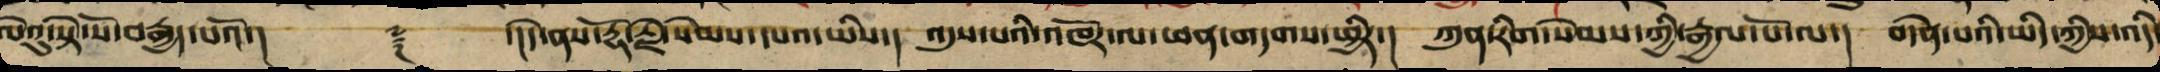ལེའུ་སྟེ་སོ་བརྒྱད་པའོ་།། ༈ ་།།དེ་ནས་རྡོ་རྗེ་སེམས་དཔའ་ཡིས་། འདུས་པའི་འཁོར་ལ་ཕན་གདགས་ཕྱིར་། ཀུན་རིག་སེམས་ཀྱི་རྒྱལ་པོ་ལ་། བདེན་པའི་ཡིད་ཀྱིས་འདི
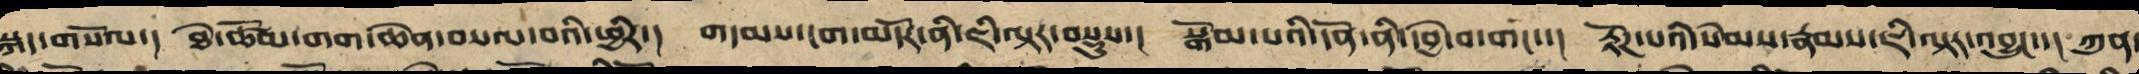སྐད་གསོལ་། ཐེ་ཚོམ་གག་ཆེན་བསལ་བའི་ཕྱིར་། གདམས་ངག་མདོར་ནི་ཇི་ལྟར་བསྡུས་། སྒོམ་པའི་དོན་ནི་དབྱེ་བ་གང་་། རྟོཌ་པའི་སེམས་ཉམས་ཇི་ལྟར་འབྱུང་་། ཀུན་
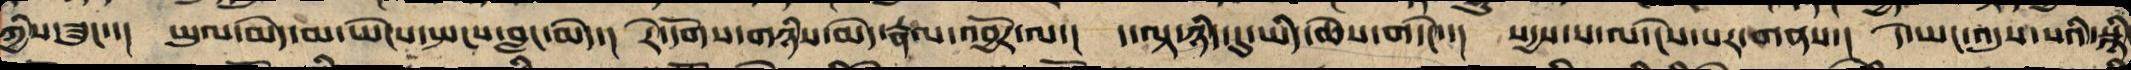ཀྱིས་ཟུང་་། ཡུལ་མེད་མ་ཡེངས་སྤང་བླང་མེད་། རེ་དོགས་གཉིས་མེད་རྣལ་འབྱོར་ལ་། ད་ལྟ་ཉིད་དུ་ཡིད་ཆེས་གདེང་་། སདྱས་ས་ལ་ངེས་པར་གནས་། དེ་ཡང་འདུས་པའི་སྙིང
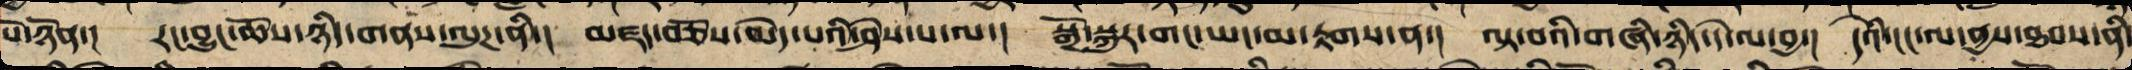པོ་ཉོན་། རང་བྱུང་ཆོས་ཉིད་གནས་ལུཌ་ནི་། མཛད་བཅོས་མེད་པའི་ཤེས་པ་ལ་། སྒྲོ་སྐུར་གང་ཡང་མ་རྟགས་ན་། ལྟ་བའི་གཞི་ཉིད་དེ་ལ་བྱ་། དེའི་ངང་ལ་ནྱས་ཐབས་ནི་
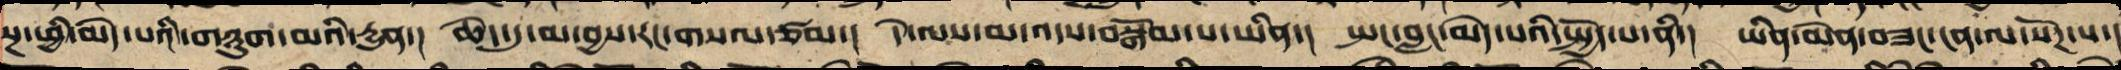སྔ་ཕྱི་མེད་པའི་གཉུག་མའི་རྒྱུན་། ཆེད་དུ་མ་བྱས་རང་གསལ་ཙམ་། དེ་ལས་མ་འདས་བསྒོམ་པ་ཡིན་། སྤང་བླང་མེད་པའི་སྤྱོད་པ་ནི་། ཡིན་མིན་བཟང་ངན་ལ་སོཌ་པ་།
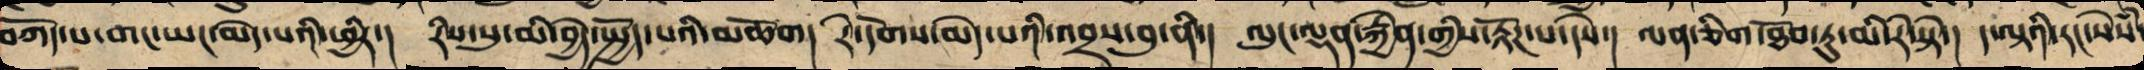བཀོད་པ་གང་ཡང་མེད་པའི་ཕྱིར་། རིས་སུ་མི་བྱེད་སྤྱོད་པའི་མཆོག། རེ་དོགས་མེད་པའི་འབྲས་བུ་ནི་། ལུང་ལྡན་རྐྱེན་གྱིས་རྟོཌ་པ་དེས་། ལན་གཅིག་ཐོབ་ཏུ་མི་རེ་སྟེ་། ད་ལྟའི་རང་སེཾས་
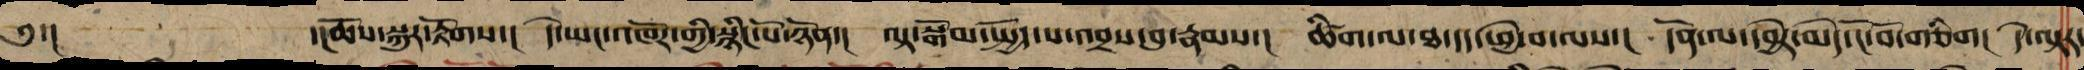༄༅་། ་།ཆོས་སྐུར་རྟོགས་། དེ་ཡང་འཁོར་གྱི་སྙིང་པོ་ཉོན་། ལྟ་སྒོམ་སྤྱོད་པ་འབྲས་བུ་རྣམས་། ཚིག་ལ་ཐ་དད་ཕྱེ་བ་ལས་། དོན་ལ་དབྱེར་མེད་ངོ་བོ་གཅིག། དེ་ལྟར
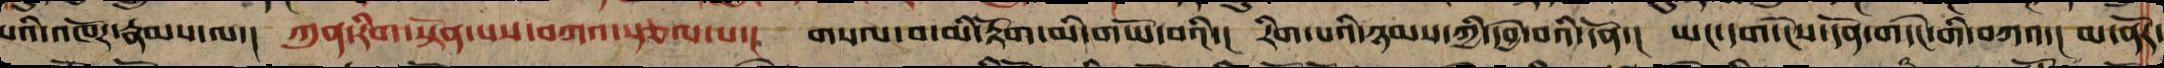པའི་འཁོར་རྣམས་ལ་། ཀུན་རིག་སྟོན་པས་བཀའ་སྩལ་པ་། གསལ་ལ་མི་རྟོག་མི་གཡོ་བའི་། རིག་པའི་ཉམས་ཀྱི་དབྱེ་བའི་དོན་། ཡང་དག་ངེས་དོན་གདེང་གི་བཀའ་། མ་ནོར་
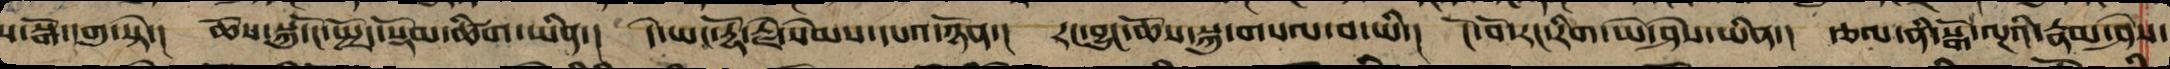ས་སྒོ་དགུ་སྟེ་། ཆོས་སྐུ་ངོ་སྤྲོད་སྡོམ་ཚིག་ཡིན་། དེ་ཡང་རྡོ་རྗེ་སེམས་དཔའ་ཉོན་། རང་བྱུང་ཆོས་སྐུ་གསལ་བ་ཡི་། ངོ་བོ་རང་རིག་ཡེ་ཤེས་ཡིན། རྩལ་ནི་སྒོ་ལྔའི་རྣམ་ཤེས་
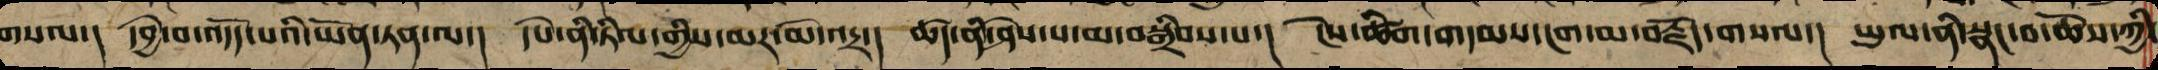གསལ་། དབྱེ་བ་འདོད་པའི་ཡོན་ཏན་ལ་། དཔེ་ནི་ཏིལ་གྱི་མར་མེ་འདྲ་། ཚད་ནི་ཤེས་པ་མ་བསྒྲིབས་པ་། ངེས་ཚིག་གདམས་ངག་མ་བརྗོད་གསལ་། ཡུལ་ནི་སྣང་བ་ཆོས་ཀྱི་
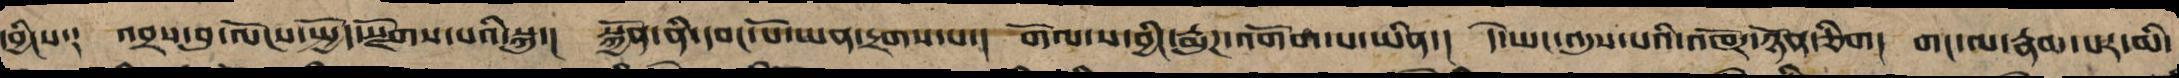དབྱིངས༑ འབྲས་བུ་ལོངས་སྤྱོད་སྫོགས་པའི་སྐུ་། སྐྱོན་ནི་དབང་པོ་ཡན་དྲགས་པ་། གོལ་ས་བྱིང་རྨུཌ་འགོག་པ་ཡིན་། དེ་ཡང་འདུས་པའི་འཁོར་ཉོན་ཅིག། གང་ལ་རྣམ་པར་མི་
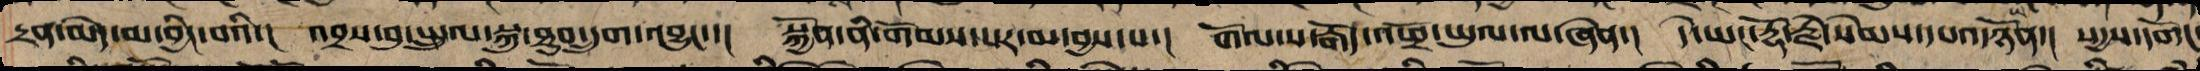དྲན་མེད་མ་བྱིང་བའི་། འབྲས་བུ་སྤྲུལ་སྐུ་ཐུབ་དྲུག་འབྱུང་་། སྐྱོན་ནི་གོམས་པར་མ་བྱས་པ་། གོལ་ས་རྒོད་འཕྲོ་ཡུལ་ལ་ཞེན་། དེ་ཡང་རྡོ་རྗེ་སེམས་དཔའ་ཉོན་། སདྱས་དགོང
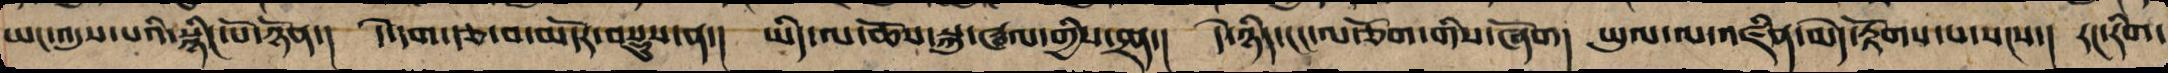ཡང་འདུས་པའི་སྙིང་པོ་ཉོན་། དེ་དག་རྩ་བ་མདོར་བསྡུས་ན་། ཡིད་ལ་ཆོས་སྐུ་ཝལ་གྱིས་དྲན་། དེ་ཉིད་ངང་ལ་ཅོག་གིས་ཞོག། ཡུལ་ལ་འཛིན་མེད་རྟོག་པ་སངས་། རང་རིག་
